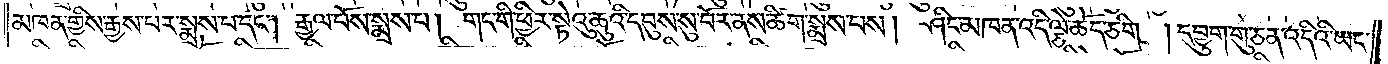མཁན་གྱིས་རྒྱས་པར་སྨྲས་པ་དང༌། རྒྱལ་པོས་སྨྲས་པ། གང་གི་ཕྱིར་སྟེའུ་ཆུའི་དབུས་སུ་བོར་ནས་ཚིག་སྨྲས་པས། ཤིང་མཁན་འདི་ལྕེ་ཆོད་ཅིག །དབྱུག་གུ་ཅན་འདིའི་ཡང་
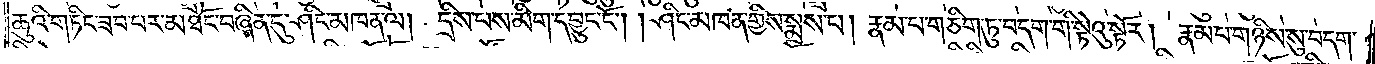ཆུའི་གཏིང་ཟབ་པར་མཐོང་བཞིན་དུ་ཤིང་མཁན་ལ། དྲིས་པས་མིག་དབྱུང་ངོ༌། །ཤིང་མཁན་གྱིས་སྨྲས་པ། རྣམ་པ་གཅིག་ཏུ་བདག་གི་སྟེའུ་སྟོར། རྣམ་པ་གཉིས་སུ་བདག་
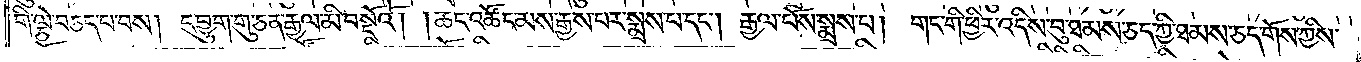གི་ལྕེ་བཅད་པ་བས། དབྱུག་གུ་ཅན་རྒྱལ་མི་བསྔོའོ། །ཆང་འཚོང་མས་རྒྱས་པར་སྨྲས་པ་དང༌། རྒྱལ་པོས་སྨྲས་པ། གང་གི་ཕྱིར་འདིས་བུ་ཐམས་ཅད་ཀྱི་ཐམས་ཅད་གོས་ཀྱིས་
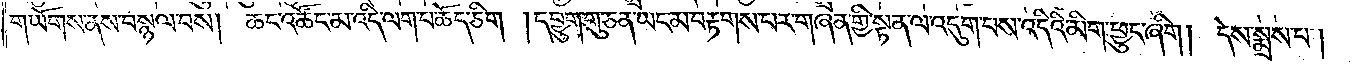གཡོགས་ནས་བསྙལ་བས། ཆང་འཚོང་མ་འདི་ལག་པ་ཆོད་ཅིག །དབྱུག་གུ་ཅན་ཡང་མ་བརྟགས་པར་གཞན་གྱི་སྟན་ལ་འདུག་པས་འདིའི་མིག་ཕྱུང་ཞིག །དེས་སྨྲས་པ།
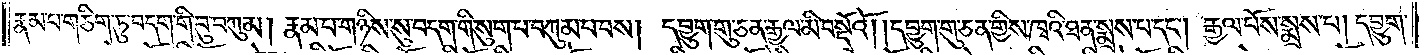རྣམ་པ་གཅིག་ཏུ་བདག་གི་བུ་བཀུམ། རྣམ་པ་གཉིས་སུ་བདག་གི་སུག་པ་བཀུམ་པ་བས། དབྱུག་གུ་ཅན་རྒྱལ་མི་བསྔོའོ། །དབྱུག་གུ་ཅན་གྱིས་ཁྭའི་ཐན་སྨྲས་པ་དང༌། རྒྱལ་པོས་སྨྲས་པ། དབྱུག་
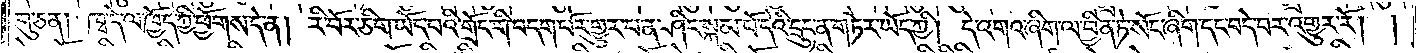གུ་ཅན། ཁྭ་དེ་ལ་ཁྱོད་ཀྱི་ཕྱོགས་དེ་ན། རི་བོར་ཅིག་ཡོད་པའི་གྲོང་གི་བདག་པོར་གྱུར་པ་ན་ཤིང་སྐམ་པོ་དེའི་དྲུང་ན་གཏེར་ཡོད་ཀྱི། དེ་འགའ་ཞིག་ལ་བྱིན་ཏེ་སོང་ཞིག་དང་བདེ་བར་འགྱུར་རོ། །
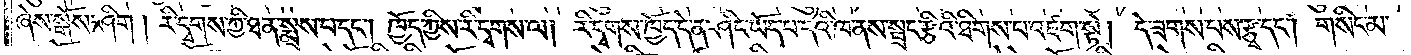ཞེས་སྒོས་ཤིག །རི་དྭགས་ཀྱི་ཐན་སྨྲས་པ་དང༌། ཁྱོད་ཀྱི་རི་དྭགས་ལ། རི་དྭགས་ཁྱོད་དེ་ན་ཤིང་ཡོད་པ་དེའི་ཁ་ནས་སྦྲང་རྩིའི་ཐིགས་པ་འཛག་སྟེ། དེ་ཟགས་པས་རྩྭ་དང༌། གསིང་མ་
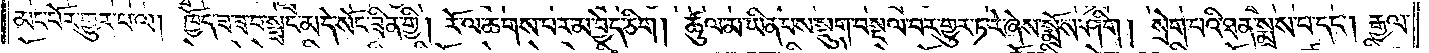མང་པོར་གྱུར་པ་ལ། ཁྱོད་ཟ་ཟ་བ་སྦྲང་མ་དེ་སོང་ཟིན་གྱི། རོ་ལ་ཆགས་པར་མ་བྱེད་ཅིག །ཚུལ་མ་ཡིན་པས་སྡུག་བསྔལ་བར་གྱུར་ཏ་རེ་ཞེས་སྨྲོས་ཤིག །སྲེག་པའི་ཐན་སྨྲས་པ་དང༌། རྒྱལ་
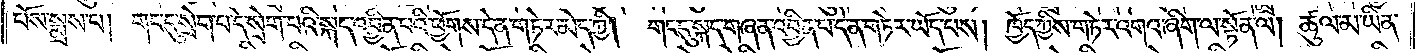པོས་སྨྲས་པ། གང་དུ་སྲེག་པ་དེ་སྲེག་པའི་སྐད་འབྱིན་པའི་ཕྱོགས་དེ་ན་གཏེར་མེད་ཀྱི། གང་དུ་སྐད་གཞན་འབྱིན་པ་དེ་ན་གཏེར་ཡོད་པས། ཁྱོད་ཀྱིས་གཏེར་འགའ་ཞིག་ལ་སྟོན་ལ། ཚུལ་མ་ཡིན་
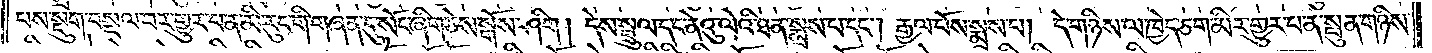པས་སྡུག་བསྔལ་བར་གྱུར་པ་ན་མི་རུང་གི་གཞན་དུ་སོང་ཞིག་ཅེས་སྒོས་ཤིག །དེས་སྦྲུལ་དང་ནེའུ་ལེའི་ཐན་སྨྲས་པ་དང༌། རྒྱལ་པོས་སྨྲས་པ། དེ་གཉིས་ལ་ཁྱེད་ཅག་མིར་གྱུར་པ་ན་སྤུན་གཉིས་
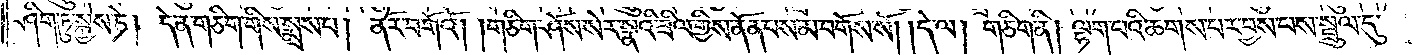ཤིག་ཏུ་སྐྱེས་ཏེ། དེ་ན་གཅིག་གིས་སྨྲས་པ། ནོར་བགོའོ། །གཅིག་ཤོས་སེར་སྣའི་ཟིལ་གྱིས་ནོན་པས་མ་བགོས་སོ། །དེ་ལ། གཅིག་ནི། ལྷག་པའི་ཆགས་པར་བྱས་པས་སྦྲུལ་དུ་
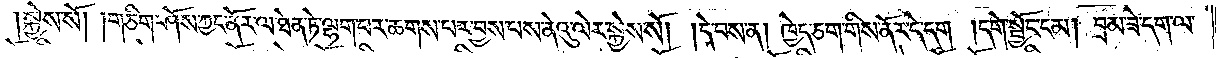སྐྱེས་སོ། །གཅིག་ཤོས་ཀྱང་ནོར་ལ་ཐེན་ཏེ་ལྷག་པར་ཆགས་པར་བྱས་པས་ནེའུ་ལེར་སྐྱེས་སོ། །དེ་བས་ན། ཁྱེད་ཅག་གིས་ནོར་དེ་དག །དགེ་སྦྱོང་ངམ། བྲམ་ཟེ་དག་ལ་
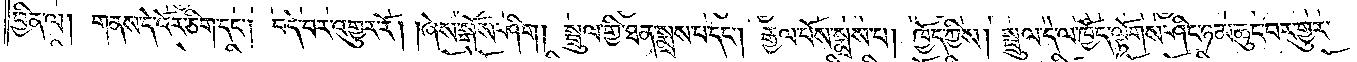བྱིན་ལ། གནས་དེ་འོར་ཅིག་དང༌། བདེ་བར་འགྱུར་རོ། །ཞེས་སྒོས་ཤིག །སྦྲུལ་གྱི་ཐན་སྨྲས་པ་དང༌། རྒྱལ་པོས་སྨྲས་པ། ཁྱོད་ཀྱིས། སྦྲུལ་དེ་ལ་ཁྱོད་ལྟོགས་ཤིང་ཉམ་ཆུང་བར་གྱུར་
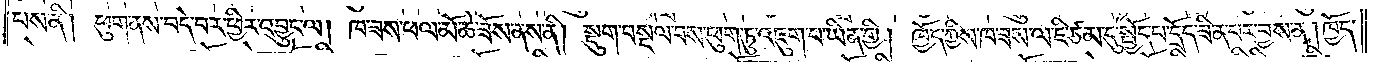པས་ནི། ཕུག་ནས་བདེ་བར་ཕྱིར་འབྱུང་ལ། ཁ་ཟས་ཕལ་མོ་ཆེ་ཟོས་ནས་ནི། སྡུག་བསྔལ་བས་ཕུག་ཏུ་འཇུག་པ་ཡིན་གྱི། ཁྱོད་ཀྱིས་ཁ་ཟས་ལ་ཇི་ཙམ་དུ་སྤྱོད་པ་དྲོད་ཟིན་པར་བྱས་ན། ཁྱོད་
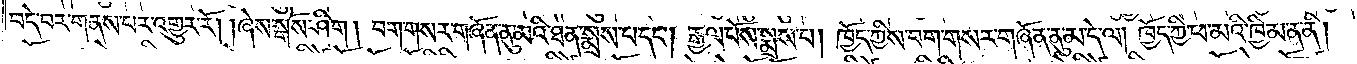བདེ་བར་གནས་པར་འགྱུར་རོ། །ཞེས་སྒོས་ཤིག །བག་གསར་གཞོན་ནུ་མའི་ཐན་སྨྲས་པ་དང༌། རྒྱལ་པོས་སྨྲས་པ། ཁྱོད་ཀྱིས་བག་གསར་གཞོན་ནུ་མ་དེ་ལ། ཁྱོད་ཀྱི་ཕ་མའི་ཁྱིམ་ན་ནི།
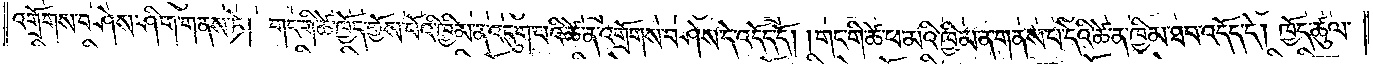འགྲོགས་བཤེས་ཤིག་གནས་ཏེ། གང་གི་ཚེ་ཁྱོད་གྱོས་པོའི་ཁྱིམ་ན་འདུག་པའི་ཚེ་ན་འགྲོགས་བཤེས་དེ་འདོད་དོ། །གང་གི་ཚེ་ཕ་མའི་ཁྱིམ་ན་གནས་པ་དེའི་ཚེ་ན་ཁྱིམ་ཐབ་འདོད་དེ། ཁྱོད་ཚུལ་
